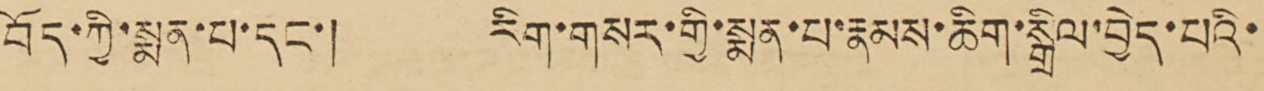བོད་ཀྱི་སྨན་པ་དང་། རིག་གསར་གྱི་སྨན་པ་རྣམས་ཆིག་སྒྲིལ་བྱེད་པའི་
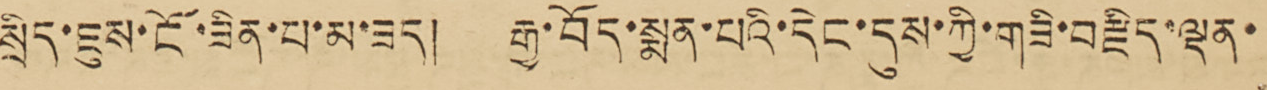སྲིད་ཇུས་ངོ་ཟིན་པ་མ་ཟད། རྒྱ་བོད་སྨན་པའི་དེང་དུས་ཀྱི་གཟི་བརྫིད་ལྡན་
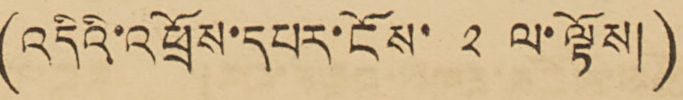(འདིའི་འཕྲོས་དཔར་ངོས་ ༢ ལ་ལྟོས།)
